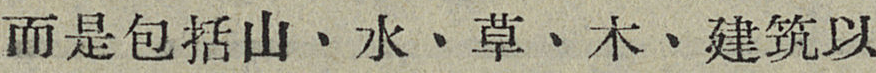而是包括山、水、草、木、建筑以
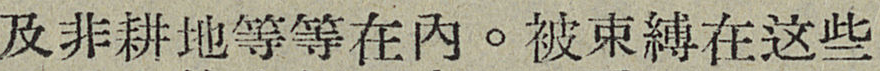及非耕地等等在内。被束縛在这些
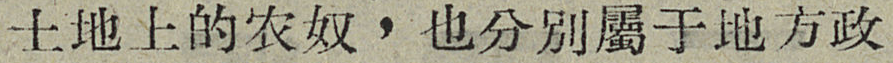土地上的农奴，也分别屬于地方政
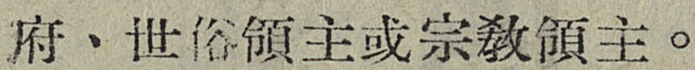府、世俗領主或宗敎領主。
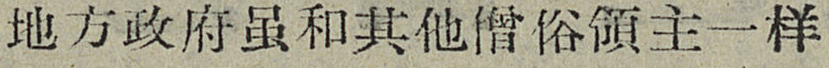地方政府虽和其他僧俗領主一样
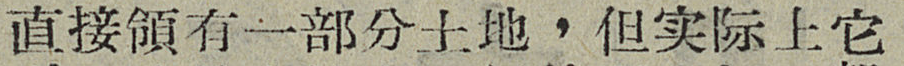直接領有一部分土地，但实际上它
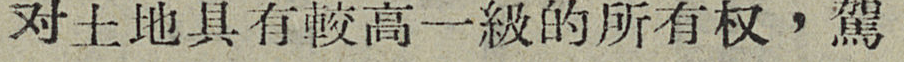对土地具有較高一級的所有权，駕
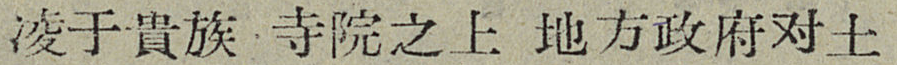凌于貴族寺院之上地方政府对土
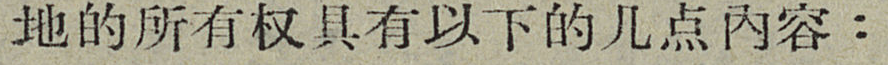地的所有权具有以下的几点内容：
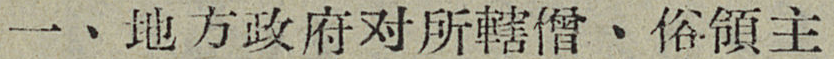一、地方政府对所轄僧、俗領主
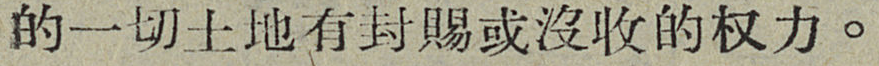的一切土地有封賜或沒收的权力。
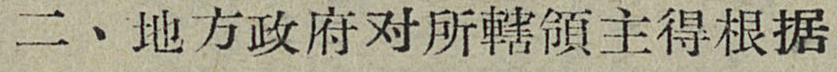二、地方政府对所轄領主得根据
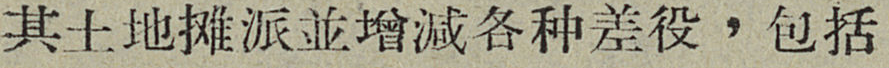其土地摊派並增減各种差役，包括
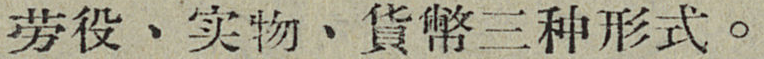劳役、实物、貨幣三种形式。
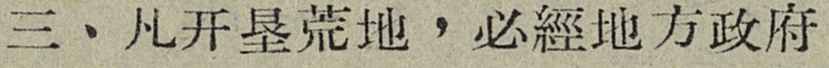三、凡开垦荒地，必經地方政府
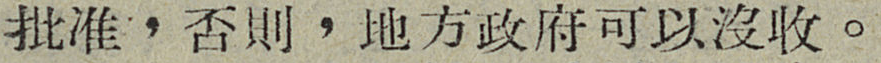批准，否則，地方政府可以沒收。
